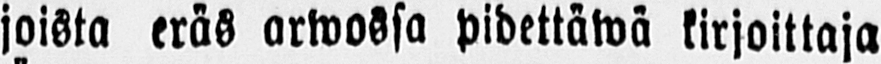joista eräs arwossa pidettäwä kirjoittaja
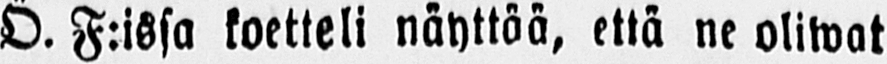Ö. F:issa koetteli näyttöä, että ne oliwat
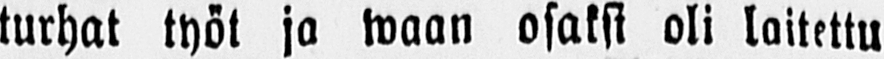turhat työt ja waan osaksi oli laitettu
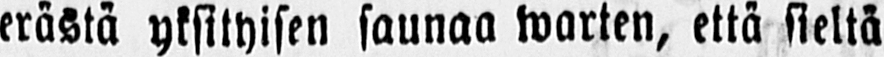erästä yksityisen saunaa warten, että sieltä
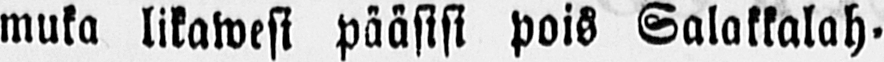muka likawesi pääsisi pois Salakkalah-
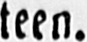teen.
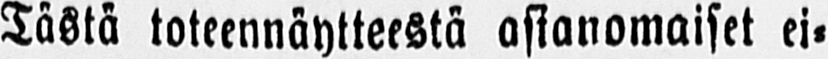Tästä toteennäytteestä asianomaiset ei-
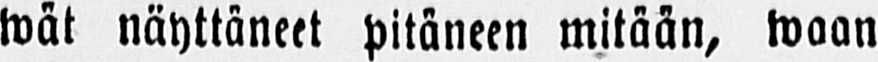wät näyttäneet pitäneen mitään, waan
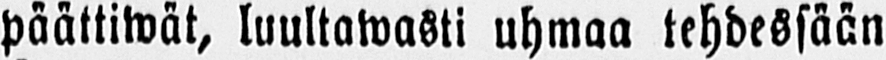päättiwät, luultawasti uhmaa tehdessään
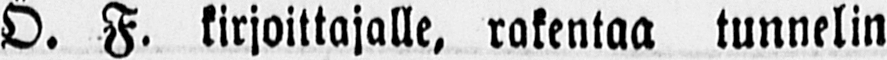Ö. F. kirjoittajalle, rakentaa tunnelin
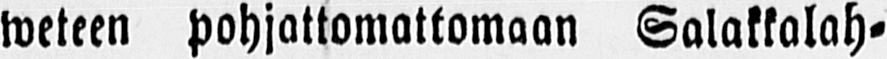weteen pohjattomattomaan Salakkalah-
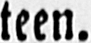teen.
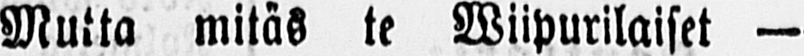Mutta mitäs te Wiipurilaiset —
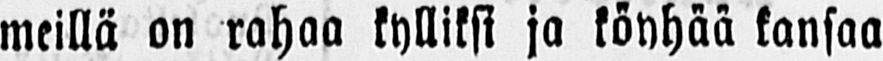meillä on rahaa kylliksi ja köyhää kansaa
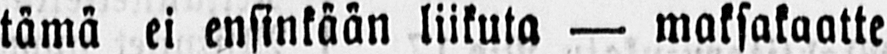tämä ei ensinkään liikuta — maksakaatte
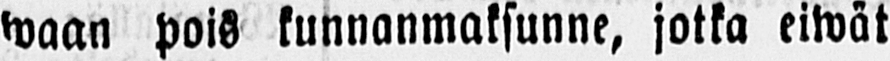waan pois kunnanmaksunne, jotka eiwät
